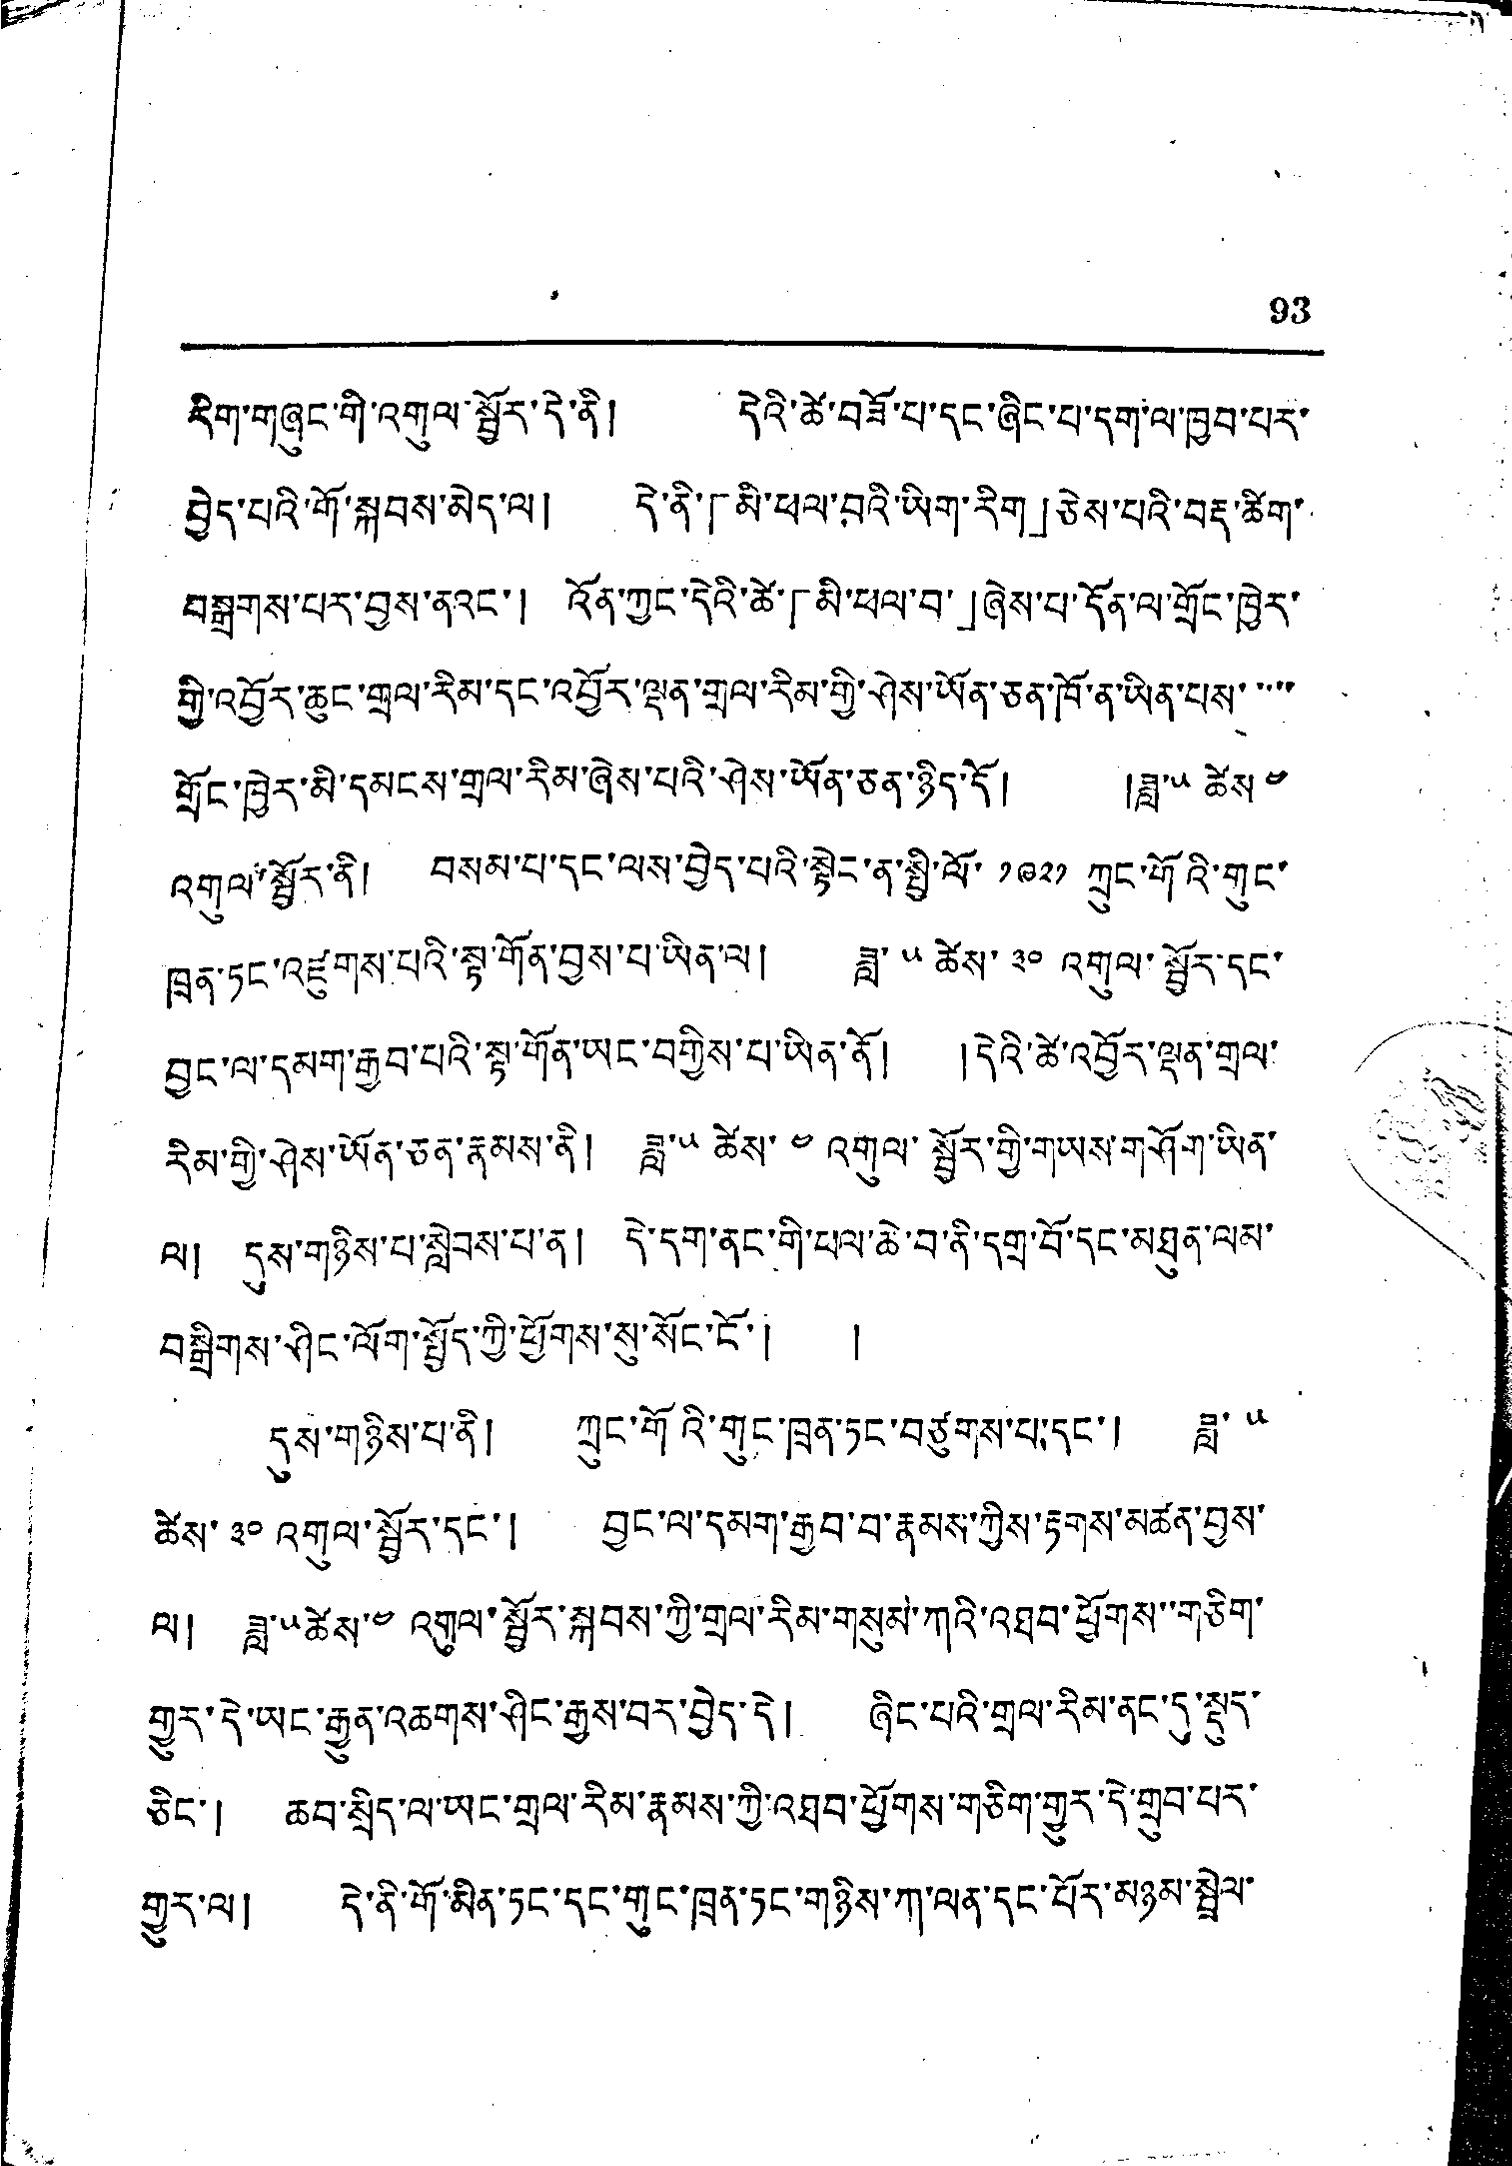93
རིག་གཞུང་གི་འགུལ་སྦྱོར་དེ་ནི། དེའི་ཚེ་བཟོ་པ་དང་ཞིང་པ་དག་ལ་ཁྱབ་པར་
བྱེད་པའི་གོ་སྐབས་མེད་ལ། དེ་ནི་「མི་ཕལ་བའི་ཡིག་རིག」ཅེས་པའི་བརྡ་ཚིག་
བསྒྲགས་པར་བྱས་ནའང་། འོན་ཀྱང་དེའི་ཚེ་「མི་ཕལ་བ་」ཞེས་པ་དོན་ལ་གྲོང་ཁྱེར་
གྱི་འབྱོར་ཆུང་གྲལ་རིམ་དང་འབྱོར་ལྡན་གྲལ་རིམ་གྱི་ཤེས་ཡོན་ཅན་ཁོ་ན་ཡིན་པས་་་་་
གྲོང་ཁྱེར་མི་དམངས་གྲལ་རིམ་ཞེས་པའི་ཤེས་ཡོན་ཅན་ཉིད་དོ། །ཟླ་༥ ཚེས་ ༤
འགྲུལ་སྦྱོར་ནི། བསམ་པ་དང་ལས་བྱེད་པའི་སྟེང་ན་སྤྱི་ལོ་ ༡༩༢༡ ཀྲུང་གོའི་གུང་
ཁྲན་ཏང་འཛུགས་པའི་སྟ་གོན་བྱས་པ་ཡིན་ལ། ཟླ་ ༥ ཚེས་ ༣༠ འགུལ་སྦྱོར་དང་
བྱང་ལ་དམག་རྒྱབ་པའི་སྟ་གོན་ཡང་བགྱིས་པ་ཡིན་ནོ། །དེའི་ཚེ་འབྱོར་ལྡན་གྲལ་
རིམ་གྱི་ཤེས་ཡོན་ཅན་རྣམས་ནི། ཟླ་༥ ཚེས་ ༤ འགུལ་སྦྱོར་གྱི་གཡས་གཤོག་ཡིན་
ལ། དུས་གཉིས་པ་སླེབས་པ་ན། དེ་དག་ནང་གི་ཕལ་ཆེ་བ་ནི་དགྲ་བོ་དང་མཐུན་ལམ་
བསྒྲིགས་ཤིང་ལོག་སྤྱོད་ཀྱི་ཕྱོགས་སུ་སོང་ངོ་། །
དུས་གཉིས་པ་ནི། ཀྲུང་གོའི་གུང་ཁྲན་ཏང་བཙུགས་པ་དང་། ཟླ་ ༥
ཚེས་ ༣༠ འགུལ་སྦྱོར་དང་། བྱང་ལ་དམག་རྒྱབ་བ་རྣམས་ཀྱིས་རྟགས་མཚན་བྱས་
ལ། ཟླ་༥ཚེས་༤ འགུལ་སྦྱོར་སྐབས་ཀྱི་གྲལ་རིམ་གསུམ་ཀའི་འཐབ་ཕྱོགས་གཅིག་
གྱུར་དེ་ཡང་རྒྱུན་འཆགས་ཤིང་རྒྱས་བར་བྱེད་དེ། ཞིང་པའི་གྲལ་རིམ་ནང་དུ་སྡུད་
ཅིང་། ཆབ་སྲིད་ལ་ཡང་གྲལ་རིམ་རྣམས་ཀྱི་འཐབ་ཕྱོགས་གཅིག་གྱུར་དེ་གྲུབ་པར་
གྱུར་ལ། དེ་ནི་གོ་མིན་ཏང་དང་གུང་ཁྲན་ཏང་གཉིས་ཀ་ལན་དང་པོར་མཉམ་སྦྱེལ་
